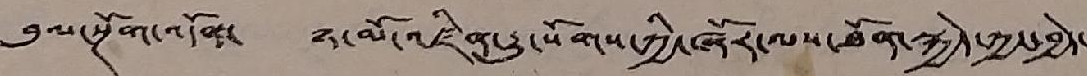བུལ་སྔོན་འདོན་ ཉ་མོ་འཛིན་རྒྱུ་སོགས་ཀྱི་ཞོར་ལས་ཐོན་སྐྱེད་ཀྱང་བྱེད་
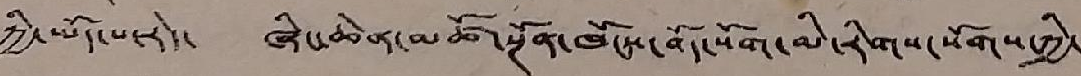ཀྱི་ཡོད་པ་རེད་ ཞིང་ཆེན་མཚོ་སྔོན་ཁོངས་བོད་སོག་མི་རིགས་སོགས་ཀྱི་
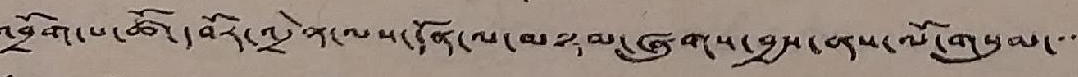འབྲོག་པ་ཚོ་དབོར་འདྲེན་ལས་དོན་ལ་མཉམ་ཞུགས་བྱས་ནས་ལོ་གསུམ་་་
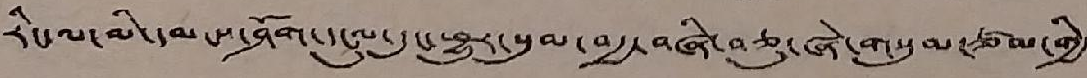རིང་ལ་མི་དམངས་ཤོག་དངུལ་དུང་ཕྱུར་སུམ་བརྒྱ་བཞི་བཅུ་ཞེ་གསུམ་ཙམ་གྱི་
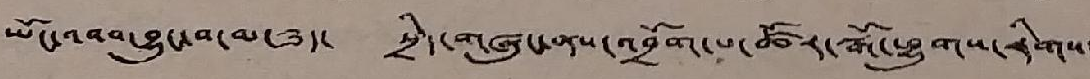ཡོང་འབབ་བྱུང་བ་མ་ཟད་ སྲིད་གཞུང་ནས་འབྲོག་པ་ཚོར་སྒོ་ཕྱུགས་རིགས་
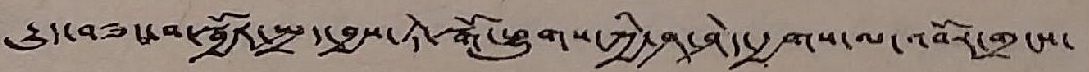རྒྱུད་བཟང་བ་སྦྱོར་སྤྲད་བྱས་ཏེ་སྒོ་ཕྱུགས་ཀྱི་ཤ་ཤེད་རྒྱགས་ལ་འབོར་གྲངས་
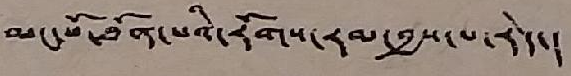མང་པོ་ཐོན་པའི་རོགས་རམ་བྱས་པ་རེད་།
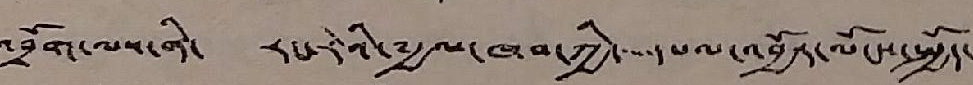འབྲོག་ལས་ནི་ རང་རེའི་༸རྒྱལ་ཁབ་ཀྱི་དཔལ་འབྱོར་ལོངས་སྤྱོད་
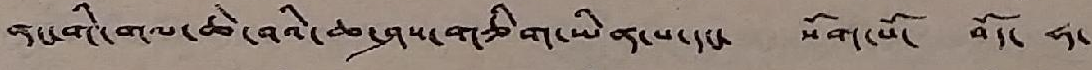ནང་གི་གལ་ཆེ་བའི་ཆ་ཤས་གཅིག་ཡིན་པ་དང་ སོག་པོ་ བོད་ ཧ་
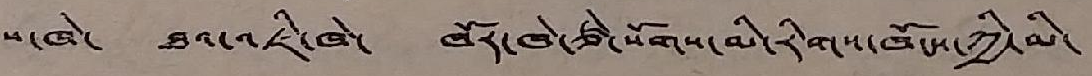པ་ཁེ་ ཐའ་འཇི་ཁེ་ ཁོར་ཁེ་ཙེ་སོགས་མི་རིགས་ཁོངས་ཀྱི་མི་
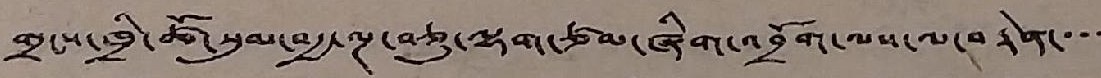གྲངས་ཁྲི་ཚོ་སུམ་བརྒྱ་ལྔ་བཅུ་ལྷག་ཙམ་ཞིག་འབྲོག་ལས་ལ་བརྟེན་་་་
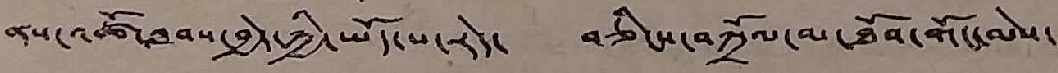ནས་འཐོ་ཐབས་བྱེད་ཀྱི་ཡོད་པ་རེད་ བཅིངས་བཀྲོལ་མ་ཐོབ་གོང་མེས་
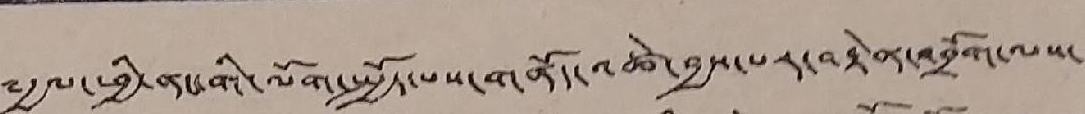༸རྒྱལ་ཕྱི་ནང་གི་ལོག་སྤྱོད་པས་གནོད་འཚེ་བྱས་པར་བརྟེན་འབྲོག་ལས་
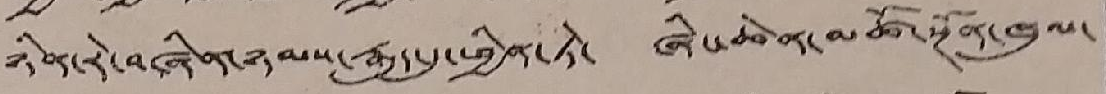ཉིན་རེ་བཞིན་ཉམས་རྒུད་དུ་ཕྱིན་ཏེ་ ཞིང་ཆེན་མཚོ་སྔོན་ཁུལ་
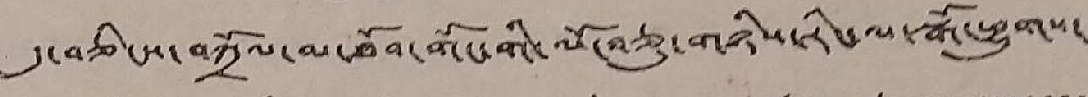དུ་བཅིངས་བཀྲོལ་མ་ཐོབ་གོང་གི་ལོ་བཅུ་གཉིས་རིང་ལ་སྒོ་ཕྱུགས་
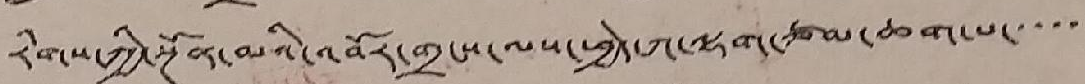རིགས་ཀྱི་སྔོན་མའི་འབོར་གྲངས་ལས་ཕྱེད་ཀ་ལྷག་ཙམ་ཆག་པ་་་་་་
